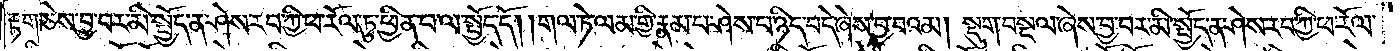རྟག་ཅེས་བྱ་བར་མི་སྤྱོད་ན་ཤེས་རབ་ཀྱི་ཕ་རོལ་ཏུ་ཕྱིན་པ་ལ་སྤྱོད་དོ། །གལ་ཏེ་ལམ་གྱི་རྣམ་པ་ཤེས་པ་ཉིད་བདེ་ཞེས་བྱ་བའམ། སྡུག་བསྔལ་ཞེས་བྱ་བར་མི་སྤྱོད་ན་ཤེས་རབ་ཀྱི་ཕ་རོལ་
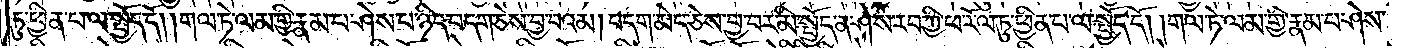ཏུ་ཕྱིན་པ་ལ་སྤྱོད་དོ། །གལ་ཏེ་ལམ་གྱི་རྣམ་པ་ཤེས་པ་ཉིད་བདག་ཅེས་བྱ་བའམ། བདག་མེད་ཅེས་བྱ་བར་མི་སྤྱོད་ན་ཤེས་རབ་ཀྱི་ཕ་རོལ་ཏུ་ཕྱིན་པ་ལ་སྤྱོད་དོ། །གལ་ཏེ་ལམ་གྱི་རྣམ་པ་ཤེས་
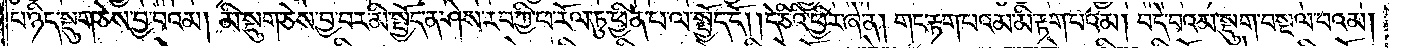པ་ཉིད་སྡུག་ཅེས་བྱ་བའམ། མི་སྡུག་ཅེས་བྱ་བར་མི་སྤྱོད་ན་ཤེས་རབ་ཀྱི་ཕ་རོལ་ཏུ་ཕྱིན་པ་ལ་སྤྱོད་དོ། །དེ་ཅིའི་ཕྱིར་ཞེ་ན། གང་རྟག་པའམ་མི་རྟག་པའམ། བདེ་བའམ་སྡུག་བསྔལ་བའམ།
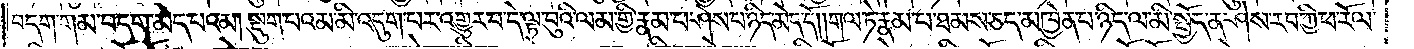བདག་གམ་བདག་མེད་པའམ། སྡུག་པའམ་མི་སྡུག་པར་འགྱུར་བ་དེ་ལྟ་བུའི་ལམ་གྱི་རྣམ་པ་ཤེས་པ་ཉིད་མེད་དོ། །གལ་ཏེ་རྣམ་པ་ཐམས་ཅད་མཁྱེན་པ་ཉིད་ལ་མི་སྤྱོད་ན་ཤེས་རབ་ཀྱི་ཕ་རོལ་
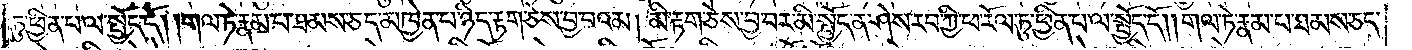ཏུ་ཕྱིན་པ་ལ་སྤྱོད་དོ། །གལ་ཏེ་རྣམ་པ་ཐམས་ཅད་མཁྱེན་པ་ཉིད་རྟག་ཅེས་བྱ་བའམ། མི་རྟག་ཅེས་བྱ་བར་མི་སྤྱོད་ན་ཤེས་རབ་ཀྱི་ཕ་རོལ་ཏུ་ཕྱིན་པ་ལ་སྤྱོད་དོ། །གལ་ཏེ་རྣམ་པ་ཐམས་ཅད་
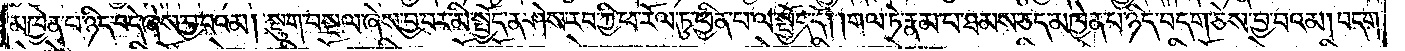མཁྱེན་པ་ཉིད་བདེ་ཞེས་བྱ་བའམ། སྡུག་བསྔལ་ཞེས་བྱ་བར་མི་སྤྱོད་ན་ཤེས་རབ་ཀྱི་ཕ་རོལ་ཏུ་ཕྱིན་པ་ལ་སྤྱོད་དོ། །གལ་ཏེ་རྣམ་པ་ཐམས་ཅད་མཁྱེན་པ་ཉིད་བདག་ཅེས་བྱ་བའམ། བདག་
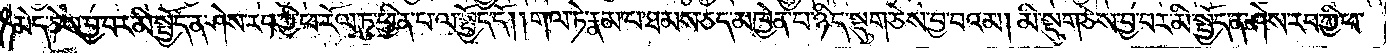མེད་ཅེས་བྱ་བར་མི་སྤྱོད་ན་ཤེས་རབ་ཀྱི་ཕ་རོལ་ཏུ་ཕྱིན་པ་ལ་སྤྱོད་དོ། །གལ་ཏེ་རྣམ་པ་ཐམས་ཅད་མཁྱེན་པ་ཉིད་སྡུག་ཅེས་བྱ་བའམ། མི་སྡུག་ཅེས་བྱ་བར་མི་སྤྱོད་ན་ཤེས་རབ་ཀྱི་ཕ་
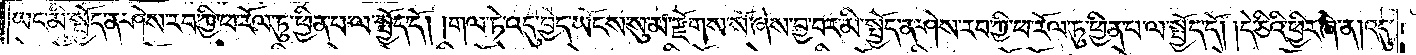ཡང་མི་སྤྱོད་ན་ཤེས་རབ་ཀྱི་ཕ་རོལ་ཏུ་ཕྱིན་པ་ལ་སྤྱོད་དོ། །གལ་ཏེ་འདུ་བྱེད་ཡོངས་སུ་མ་རྫོགས་སོ་ཞེས་བྱ་བར་མི་སྤྱོད་ན་ཤེས་རབ་ཀྱི་ཕ་རོལ་ཏུ་ཕྱིན་པ་ལ་སྤྱོད་དོ། །དེ་ཅིའི་ཕྱིར་ཞེ་ན། འདུ་
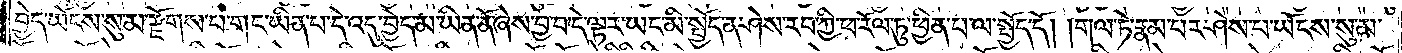བྱེད་ཡོངས་སུ་མ་རྫོགས་པ་གང་ཡིན་པ་དེ་འདུ་བྱེད་མ་ཡིན་ནོ་ཞེས་བྱ་བ་དེ་ལྟར་ཡང་མི་སྤྱོད་ན་ཤེས་རབ་ཀྱི་ཕ་རོལ་ཏུ་ཕྱིན་པ་ལ་སྤྱོད་དོ། །གལ་ཏེ་རྣམ་པར་ཤེས་པ་ཡོངས་སུ་མ་
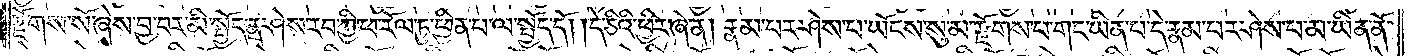རྫོགས་སོ་ཞེས་བྱ་བར་མི་སྤྱོད་ན་ཤེས་རབ་ཀྱི་ཕ་རོལ་ཏུ་ཕྱིན་པ་ལ་སྤྱོད་དོ། །དེ་ཅིའི་ཕྱིར་ཞེ་ན། རྣམ་པར་ཤེས་པ་ཡོངས་སུ་མ་རྫོགས་པ་གང་ཡིན་པ་དེ་རྣམ་པར་ཤེས་པ་མ་ཡིན་ནོ་
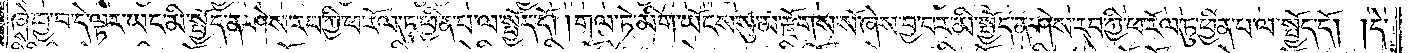ཞེ་བྱ་བ་དེ་ལྟར་ཡང་མི་སྤྱོད་ན་ཤེས་རབ་ཀྱི་ཕ་རོལ་ཏུ་ཕྱིན་པ་ལ་སྤྱོད་དོ། །གལ་ཏེ་མིག་ཡོངས་སུ་མ་རྫོགས་སོ་ཞེས་བྱ་བར་མི་སྤྱོད་ན་ཤེས་རབ་ཀྱི་ཕ་རོལ་ཏུ་ཕྱིན་པ་ལ་སྤྱོད་དོ། །དེ་
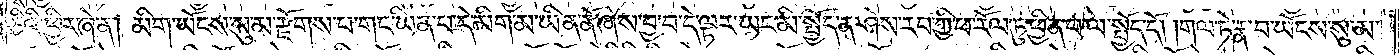ཅིའི་ཕྱིར་ཞེ་ན། མིག་ཡོངས་སུ་མ་རྫོགས་པ་གང་ཡིན་པ་དེ་མིག་མ་ཡིན་ནོ་ཞེས་བྱ་བ་དེ་ལྟར་ཡང་མི་སྤྱོད་ན་ཤེས་རབ་ཀྱི་ཕ་རོལ་ཏུ་ཕྱིན་པ་ལ་སྤྱོད་དོ། །གལ་ཏེ་རྣ་བ་ཡོངས་སུ་མ་
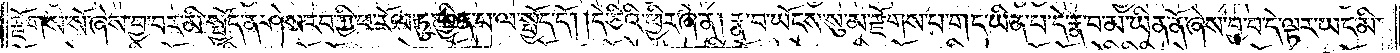རྫོགས་སོ་ཞེས་བྱ་བར་མི་སྤྱོད་ན་ཤེས་རབ་ཀྱི་ཕ་རོལ་ཏུ་ཕྱིན་པ་ལ་སྤྱོད་དོ། །དེ་ཅིའི་ཕྱིར་ཞེ་ན། རྣ་བ་ཡོངས་སུ་མ་རྫོགས་པ་གང་ཡིན་པ་དེ་རྣ་བ་མ་ཡིན་ནོ་ཞེས་བྱ་བ་དེ་ལྟར་ཡང་མི་
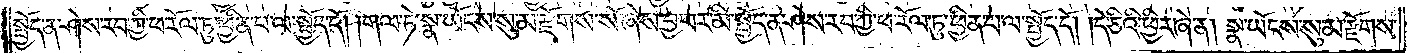སྤྱོད་ན་ཤེས་རབ་ཀྱི་ཕ་རོལ་ཏུ་ཕྱིན་པ་ལ་སྤྱོད་དོ། །གལ་ཏེ་སྣ་ཡོངས་སུ་མ་རྫོགས་སོ་ཞེས་བྱ་བར་མི་སྤྱོད་ན་ཤེས་རབ་ཀྱི་ཕ་རོལ་ཏུ་ཕྱིན་པ་ལ་སྤྱོད་དོ། །དེ་ཅིའི་ཕྱིར་ཞེ་ན། སྣ་ཡོངས་སུ་མ་རྫོགས་
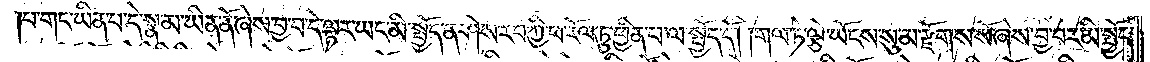པ་གང་ཡིན་པ་དེ་སྣ་མ་ཡིན་ནོ་ཞེས་བྱ་བ་དེ་ལྟར་ཡང་མི་སྤྱོད་ན་ཤེས་རབ་ཀྱི་ཕ་རོལ་ཏུ་ཕྱིན་པ་ལ་སྤྱོད་དོ། །གལ་ཏེ་ལྕེ་ཡོངས་སུ་མ་རྫོགས་སོ་ཞེས་བྱ་བར་མི་སྤྱོད་
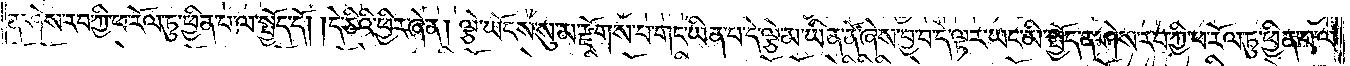ན་ཤེས་རབ་ཀྱི་ཕ་རོལ་ཏུ་ཕྱིན་པ་ལ་སྤྱོད་དོ། །དེ་ཅིའི་ཕྱིར་ཞེ་ན། ལྕེ་ཡོངས་སུ་མ་རྫོགས་པ་གང་ཡིན་པ་དེ་ལྕེ་མ་ཡིན་ནོ་ཞེས་བྱ་བ་དེ་ལྟར་ཡང་མི་སྤྱོད་ན་ཤེས་རབ་ཀྱི་ཕ་རོལ་ཏུ་ཕྱིན་པ་ལ་
